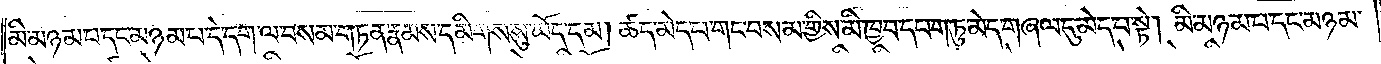མི་མཉམ་པ་དང་མཉམ་པ་དེ་དག་ལ་བསམ་གཏན་རྣམས་དམིགས་སུ་ཡོད་དམ། ཚད་མེད་པ་གང་བསམ་གྱིས་མི་ཁྱབ་དཔག་ཏུ་མེད་གཞལ་དུ་མེད་བ་སྟེ། མི་མཉམ་པ་དང་མཉམ་
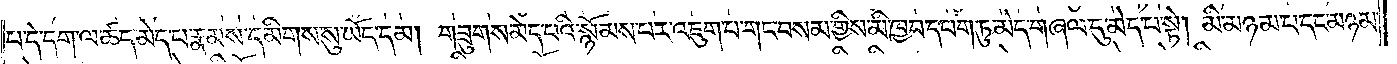པ་དེ་དག་ལ་ཚད་མེད་པ་རྣམས་དམིགས་སུ་ཡོད་དམ། གཟུགས་མེད་པའི་སྙོམས་པར་འཇུག་པ་གང་བསམ་གྱིས་མི་ཁྱབ་དཔག་ཏུ་མེད་གཞལ་དུ་མེད་པ་སྟེ། མི་མཉམ་པ་དང་མཉམ་
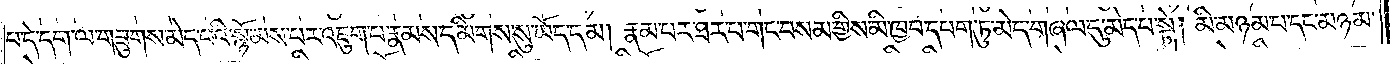པ་དེ་དག་ལ་གཟུགས་མེད་པའི་སྙོམས་པར་འཇུག་པ་རྣམས་དམིགས་སུ་ཡོད་དམ། རྣམ་པར་ཐར་པ་གང་བསམ་གྱིས་མི་ཁྱབ་དཔག་ཏུ་མེད་གཞལ་དུ་མེད་པ་སྟེ། མི་མཉམ་པ་དང་མཉམ་
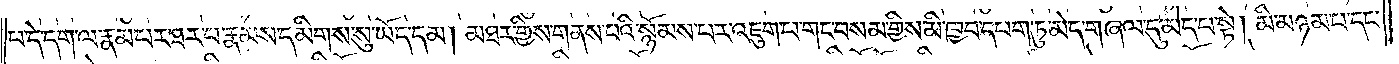པ་དེ་དག་ལ་རྣམ་པར་ཐར་པ་རྣམས་དམིགས་སུ་ཡོད་དམ། མཐར་གྱིས་གནས་པའི་སྙོམས་པར་འཇུག་པ་གང་བསམ་གྱིས་མི་ཁྱབ་དཔག་ཏུ་མེད་གཞལ་དུ་མེད་པ་སྟེ། མི་མཉམ་པ་དང་
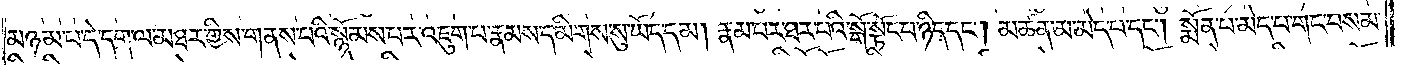མཉམ་པ་དེ་དག་ལ་མཐར་གྱིས་གནས་པའི་སྙོམས་པར་འཇུག་པ་རྣམས་དམིགས་སུ་ཡོད་དམ། རྣམ་པར་ཐར་པའི་སྒོ་སྟོང་པ་ཉིད་དང༌། མཚན་མ་མེད་པ་དང༌། སྨོན་པ་མེད་པ་གང་བསམ་
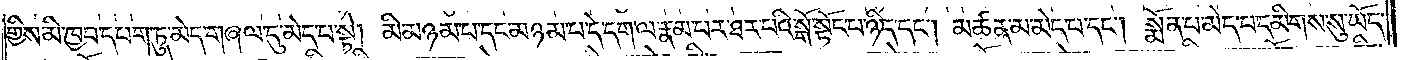གྱིས་མི་ཁྱབ་དཔག་ཏུ་མེད་གཞལ་དུ་མེད་པ་སྟེ། མི་མཉམ་པ་དང་མཉམ་པ་དེ་དག་ལ་རྣམ་པར་ཐར་པའི་སྒོ་སྟོང་པ་ཉིད་དང༌། མཚན་མ་མེད་པ་དང༌། སྨོན་པ་མེད་པ་དམིགས་སུ་ཡོད་
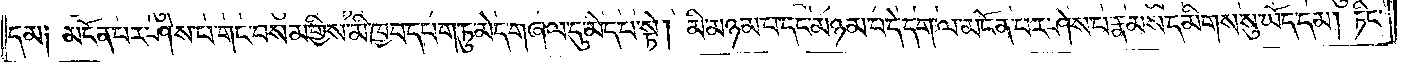དམ༑ མངོན་པར་ཤེས་པ་གང་བསམ་གྱིས་མི་ཁྱབ་དཔག་ཏུ་མེད་གཞལ་དུ་མེད་པ་སྟེ། མི་མཉམ་པ་དང་མཉམ་པ་དེ་དག་ལ་མངོན་པར་ཤེས་པ་རྣམས་དམིགས་སུ་ཡོད་དམ། ཏིང་
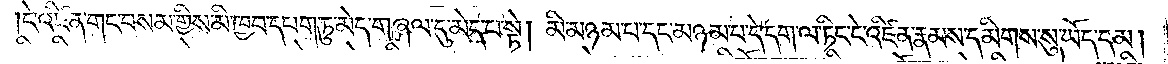ངེ་འཛིན་གང་བསམ་གྱིས་མི་ཁྱབ་དཔག་ཏུ་མེད་གཞལ་དུ་མེད་པ་སྟེ། མི་མཉམ་པ་དང་མཉམ་པ་དེ་དག་ལ་ཏིང་ངེ་འཛིན་རྣམས་དམིགས་སུ་ཡོད་དམ།
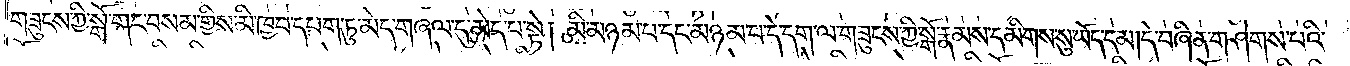གཟུངས་ཀྱི་སྒོ་གང་བསམ་གྱིས་མི་ཁྱབ་དཔག་ཏུ་མེད་གཞལ་དུ་མེད་པ་སྟེ། མི་མཉམ་པ་དང་མཉམ་པ་དེ་དག་ལ་གཟུངས་ཀྱི་སྒོ་རྣམས་དམིགས་སུ་ཡོད་དམ། དེ་བཞིན་གཤེགས་པའི་
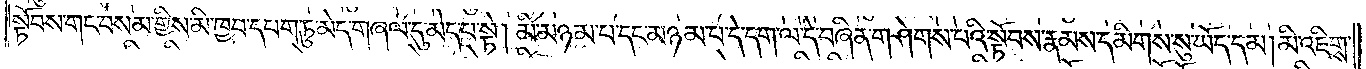སྟོབས་གང་བསམ་གྱིས་མི་ཁྱབ་དཔག་ཏུ་མེད་གཞལ་དུ་མེད་པ་སྟེ། མི་མཉམ་པ་དང་མཉམ་པ་དེ་དག་ལ་དེ་བཞིན་གཤེགས་པའི་སྟོབས་རྣམས་དམིགས་སུ་ཡོད་དམ། མི་འཇིགས་
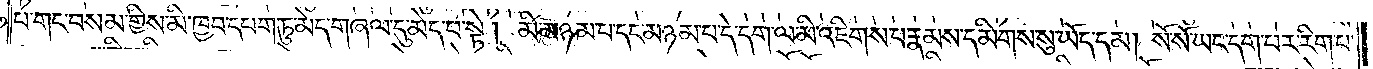པ་གང་བསམ་གྱིས་མི་ཁྱབ་དཔག་ཏུ་མེད་གཞལ་དུ་མེད་པ་སྟེ། མི་མཉམ་པ་དང་མཉམ་པ་དེ་དག་ལ་མི་འཇིགས་པ་རྣམས་དམིགས་སུ་ཡོད་དམ། སོ་སོ་ཡང་དག་པར་རིག་པ་
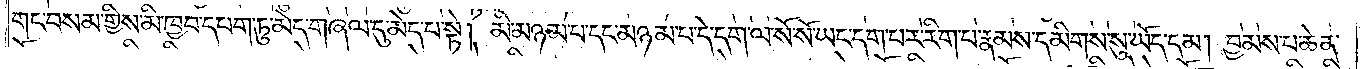གང་བསམ་གྱིས་མི་ཁྱབ་དཔག་ཏུ་མེད་གཞལ་དུ་མེད་པ་སྟེ། མི་མཉམ་པ་དང་མཉམ་པ་དེ་དག་ལ་སོ་སོ་ཡང་དག་པར་རིག་པ་རྣམས་དམིགས་སུ་ཡོད་དམ། བྱམས་པ་ཆེན་
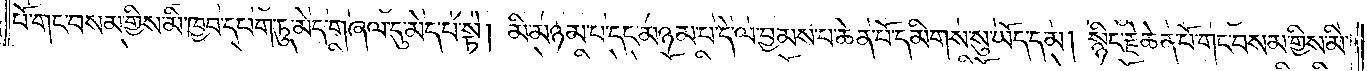པོ་གང་བསམ་གྱིས་མི་ཁྱབ་དཔག་ཏུ་མེད་གཞལ་དུ་མེད་པ་སྟེ། མི་མཉམ་པ་དང་མཉམ་པ་དེ་ལ་བྱམས་པ་ཆེན་པོ་དམིགས་སུ་ཡོད་དམ། སྙིང་རྗེ་ཆེན་པོ་གང་བསམ་གྱིས་མི་
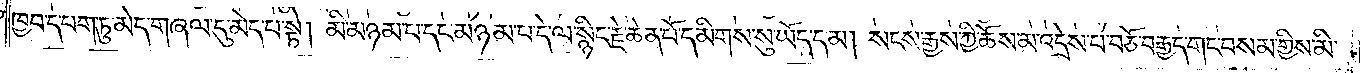ཁྱབ་དཔག་ཏུ་མེད་གཞལ་དུ་མེད་པ་སྟེ། མི་མཉམ་པ་དང་མཉམ་པ་དེ་ལ་སྙིང་རྗེ་ཆེན་པོ་དམིགས་སུ་ཡོད་དམ། སངས་རྒྱས་ཀྱི་ཆོས་མ་འདྲེས་པ་བཅོ་བརྒྱད་གང་བསམ་གྱིས་མི་
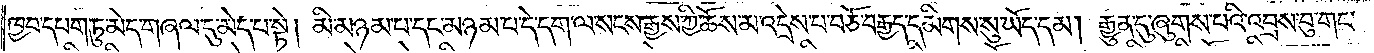ཁྱབ་དཔག་ཏུ་མེད་གཞལ་དུ་མེད་པ་སྟེ། མི་མཉམ་པ་དང་མཉམ་པ་དེ་དག་ལ་སངས་རྒྱས་ཀྱི་ཆོས་མ་འདྲེས་པ་བཅོ་བརྒྱད་དམིགས་སུ་ཡོད་དམ། རྒྱུན་དུ་ཞུགས་པའི་འབྲས་བུ་གང་
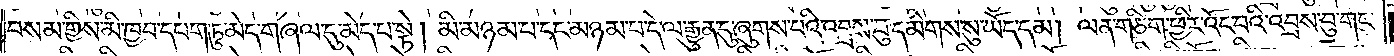བསམ་གྱིས་མི་ཁྱབ་དཔག་ཏུ་མེད་གཞལ་དུ་མེད་པ་སྟེ། མི་མཉམ་པ་དང་མཉམ་པ་དེ་ལ་རྒྱུན་དུ་ཞུགས་པའི་འབྲས་བུ་དམིགས་སུ་ཡོད་དམ། ལན་གཅིག་ཕྱིར་འོང་བའི་འབྲས་བུ་གང་
